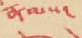རྣམས་
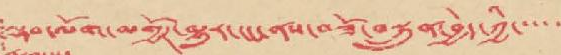ལྡབ་ལོག་མགྱོཊ་མྱུར་ངང་ནས་བཟོ་བསྐྲུན་བྱེད་ཀྱི་་་་་
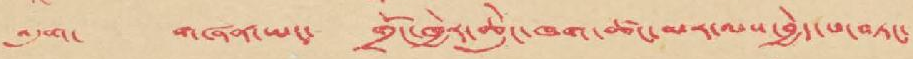འདུག་ གཞན་ཡང་ གྲོང་ཁྱེར་ཆེུང་ཁག་ཚང་མར་ལས་བྱེད་པ་བཏང་
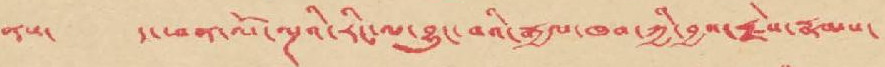ནས་ ད་ཕན་ལོ་ལྔའི་རིང་ལ་བྱུང་བའི་རྒྱལ་ཁབ་ཀྱི་བྱས་རྗེས་རྣམས་
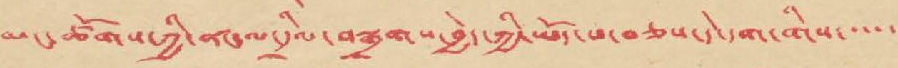མང་ཚོགས་ཀྱི་ནང་ལ་དྲིལ་བསྒྲགས་བྱེད་ཀྱི་ཡོད་པ་བཅས་དེ་དག་གིས་་་་་
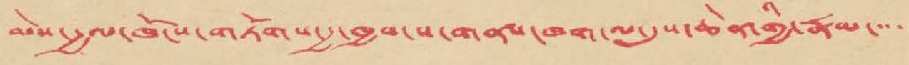མེས་རྒྱལ་ཁོངས་གཏོགས་རྒྱ་ཁྱབ་ས་གནས་ཁག་ལ་དུས་ཆེན་གྱི་རྣམ་་་་
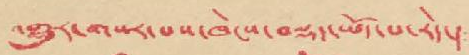འགྱུར་གསར་པས་ཁེངས་བསྡད་ཡོད་པ་རེད་།
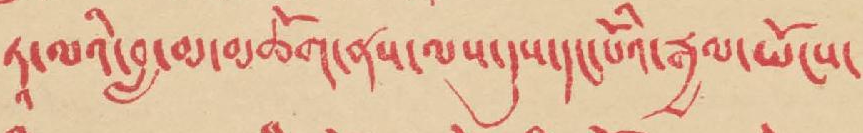ཏཱ་ལའི་བླ་མ་མཆོག་ནས་ལས་དུས་དང་པོའི་རྒྱལ་ཡོངས་
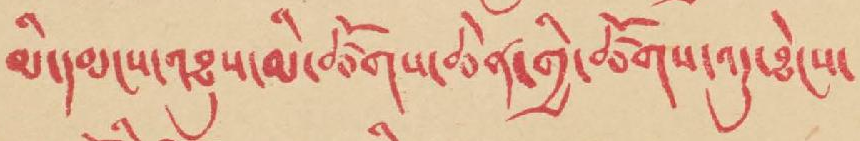མི་དམངས་འཐུས་མི་ཚོགས་ཆེན་གྱི་ཚོགས་འདུ་ཐེངས་
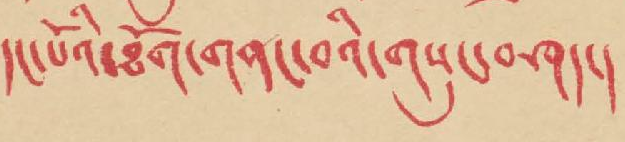དང་པོའི་ཐོག་གནང་བའི་གསུང་བཤད་།
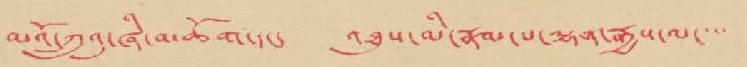མའོ་ཀྲུའུ་ཞི་མཆོག་དང་ འཐུས་མི་རྣམ་པ་ལྷག་རྒྱས་ལ་་་་
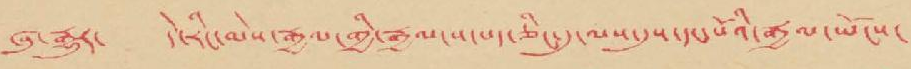ཞུ་རྒྱུར་ དེ་རིང་མེས་རྒྱལ་གྱི་རྒྱལ་ས་པད་ཅིང་དུ་ལས་དུས་དང་པོའི་རྒྱལ་ཡོངས་
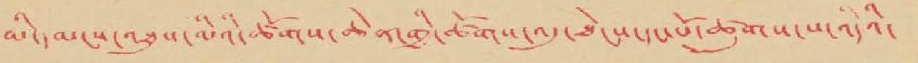མི་དམངས་འཐུས་མིའི་ཚོགས་ཆེན་གྱི་ཚོགས་འདུ་ཐེངས་དང་པོ་ཚུགས་པ་འདིའི་
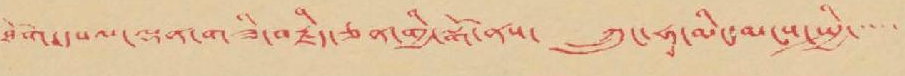ཐོག་དཔལལདན་གཟི་བརྗིད་ཅན་གྱི་སྒོ་ནས་ ཀྲུང་ཧྭ་མིང་མངས་སྤྱི་་་་་
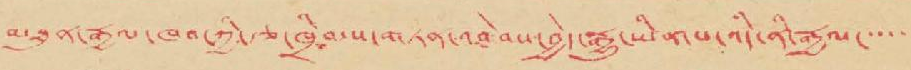མཐུན་རྒྱལ་ཁབ་ཀྱི་རྩ་ཁྲིམས་གཏན་འབེབས་བྱེད་རྒྱུ་ཡིན་པ་འདི་ནི་རྒྱལ་་་་་
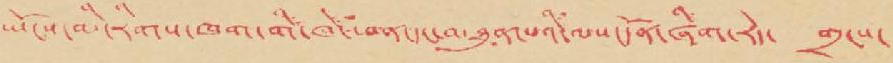ཡོངས་མི་རིགས་ཁག་གི་ཁེ་ཕན་དང་མཐུན་པའི་ལས་དོན་ཞིག་རེད་ གྲངས་
